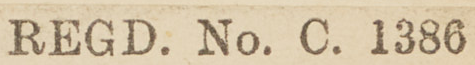REGD. NO. C. 1386
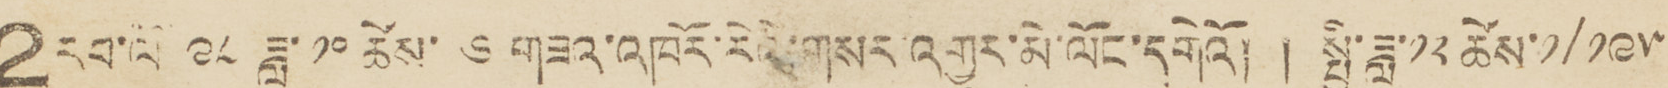12རབ་ལོ་ ༩༨ ཟླ་ ༡༠ ཚེས་ ༦ གཟའ་འཁོར་རེའི་གསར་འགྱུར་མེ་ལོང་དགེའོ། ། སྤྱི་ཟླ་༡༢ཚེས་༡/༡༩༥
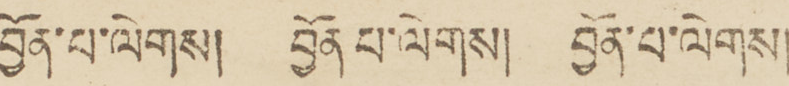བྱོན་པ་ལེགས། བྱོན་པ་ལེགས། བྱོན་པ་ལེགས།
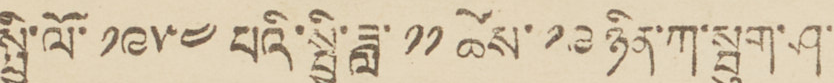སྤྱི་ལོ་ ༡༩༥༤ སྤྱི་ཟླ་༡༡ཚེས་༡༩ཉིན་ཀ་སྤུག་ཤ་
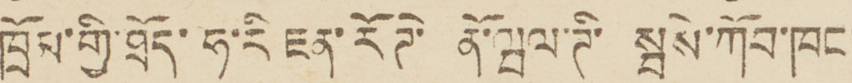ཁྲོམ་གྱི་ཐོད་ཧ་རི་ ཇན་རོཊེ་ནོ་ཝལ་ཊི་སྦེས་ཀོབ་ཁང་
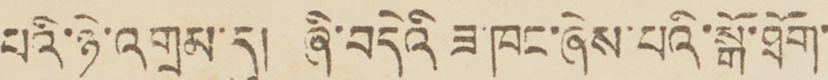པའི་ཉེ་འགྲམ་དུ། ཞི་བདེའི ཟ་བདེའི ཟ་ཁང་ཞེས་པའི་སྒོ་ཐོག་
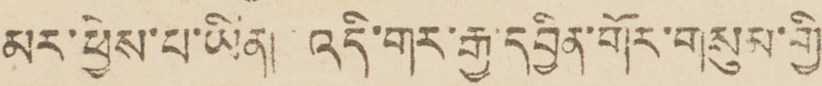མར་ཕྱེས་པ་ཡིན། འདི་གར་རྒྱ་དབྱིན་གོར་གསུམ་གྱི
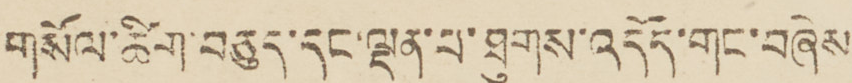གསོལ་ཚིག་བཅུད་དང་ལྡན་པ་ཐུགས་འདོད་གང་བཞེས་
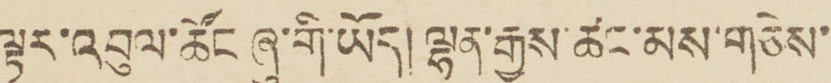ལྟར་འབུལ་ཚོང་ཞུ་གི་ཡོད། ལྷན་རྒྱས་ཚང་མས་གཅེས་
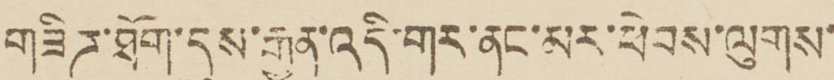གཟིཌ་ཐོག་དུས་རྒྱུན་འདི་གར་ནང་མར་ཕེབས་ལུགས་
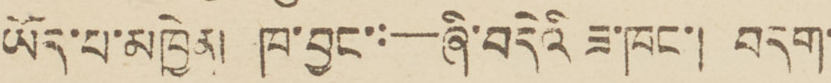ཡོད་པ་མཁྱེན། ཁ་བྱང་:—ཞི་བདེའི ཟ་ཁང་། བདག་
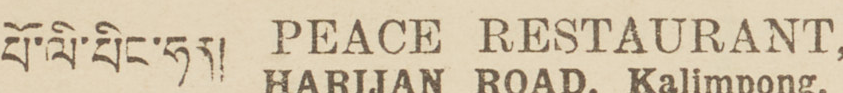པོ་ལི་པིང་ཧན། PEACE RESTAURANT.
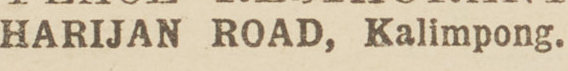HARIJAN ROAD, Kalimpong.
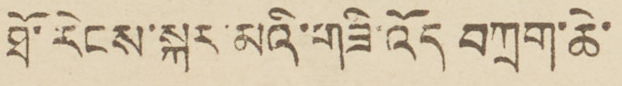ཐོ་རེངས་སྐར་མའི་གཟི་འོད བཀྲག་ཆེ་
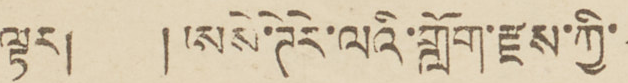ལྟར། །ཨསེ་ཊེརེ་ལའི་གློག་རྫས་ཀྱི་
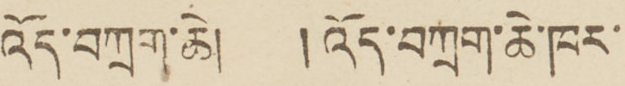འོད་བཀྲག་ཆེ། །འོད་བཀྲག་ཆེ་ཁར་
